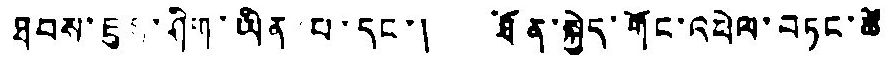ཐབས་ཇུག་ཤིག་ཡིན པ་དང་། ཐོན་སྐྱེད་གོང་འཕེལ་བཏང་ཚེ
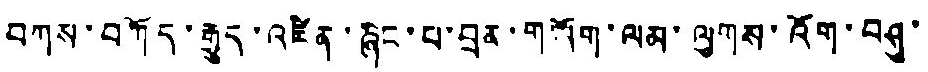བཀས་བཀོད་རྒྱུད་འཛིན་ཞིང་པ་བྲན་གཡོག་ལམ་ལུགས་འོག་བཤུ་
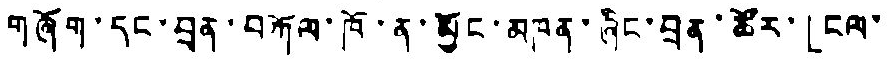གཞོག་དང་བྲན་བཀོལ་ཁོ་ན་མྱོང་མཁན་ཞིང་བྲན་ཚོར་「ངུལ་
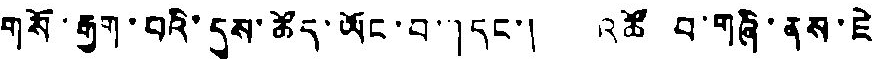གསོ་རྒྱག་པའི་དུས་ཚོད་ཡོང་བ་」དང་། འཚོ བ་གཞི་ནས་ཇེ
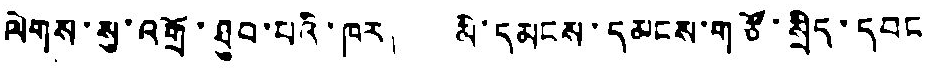ལེགས་སུ་འགྲོ་ཐུབ་པའི་ཁར། མི་དམངས་དམངས་གཙོ་སྲིད་དབང
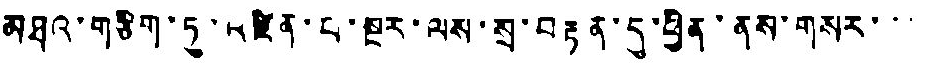མཐའ་གཅིག་ཏུ་འཛིན་པ་སྔར་ལས་སྲ་བརྟན་དུ་ཕྱིན་ནས་གསར་་་
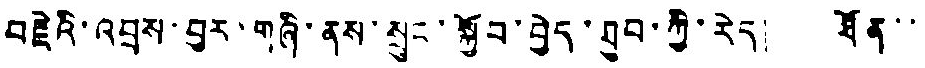བརྗེའི་འབྲས་བུར་གཞི་ནས་སྲུང་སྐྱོབ་བྱེད་ཐུབ་ཀྱི་རེད། ཐོན་་
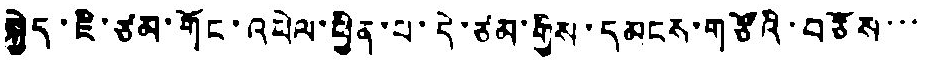སྐྱེད་ཇི་ཙམ་གོང་འཕེལ་ཕྱིན་པ་དེ་ཙམ་གྱིས་དམངས་གཙོའི་བཅོས་་་
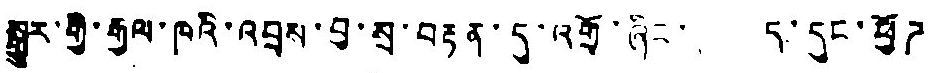སྒྱུར་གྱི་རྒྱལ་ཁའི་འབྲས་བུ་སྲ་བརྟན་དུ་འགྲོ་ཞིང་ ད་དུང་ཕྱོཌ
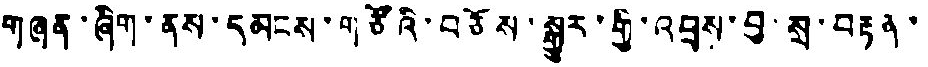གཞན་ཞིག་ནས་དམངས་གཙོའི་བཅོས་སྒྱུར་གྱི་འབྲས་བུ་སྲ་བརྟན་
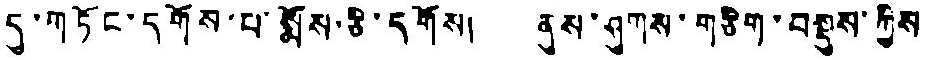དུ་གཏོང་དགོས་པ་སྨོས་ཅི་དགོས། ནུས་ཤུགས་གཅིག་བསྡུས་ཀྱིས
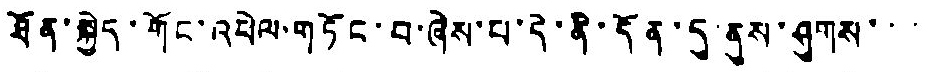ཐོན་སྐྱེད་གོང་འཕེལ་གཏོང་བ་ཞེས་པ་དེ་ནི་དོན་དུ ནུས་ཤུགས་་་
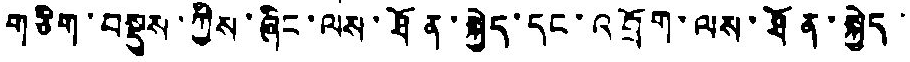གཅིག་བསྡུས་ཀྱིས་ཞིང་ལས་ཐོན་སྐྱེད་དང་འབྲོག་ལས་ཐོན་སྐྱེད་
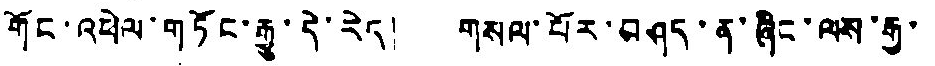གོང་འཕེལ་གཏོང་རྒྱུ་དེ་རེད། གསལ་པོར་བཤད་ན་ཞིང་ལས་རྒྱ་
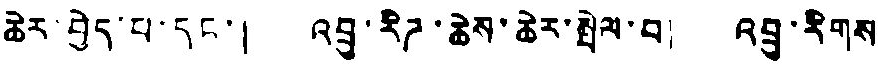ཆེར་བྱེད་པ་དང་། འབྲུ་རིཌ་ཆེས་ཆེར་སྤེལ་བ། འབྲུ་རིགས
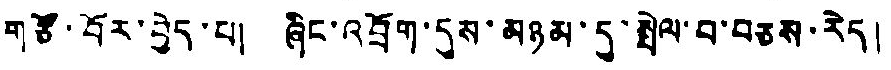གཙོ་བོར་བྱེད་པ། ཞིང་འབྲོག་དུས་མཉམ་དུ་སྤེལ་བ་བཅས་རེད།
